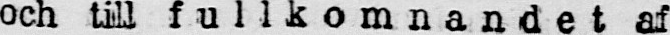och till fullkomnandet af
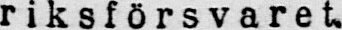riksförsvaret.
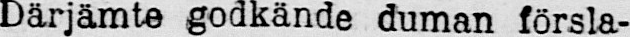Därjämte godkände duman försla-
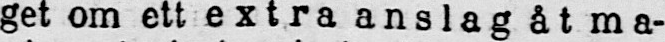get om ett extra anslag åt ma-
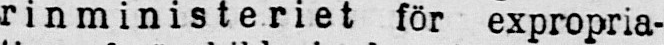rinministeriet för expropria-
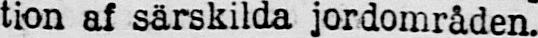tion af särskilda jordområden.
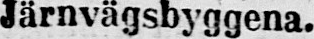Järnvägsbyggena.
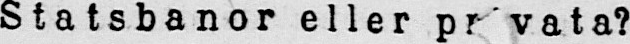Statsbanor eller pr vata?
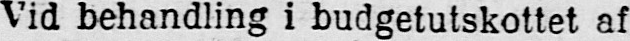Vid behandling i budgetutskottet af
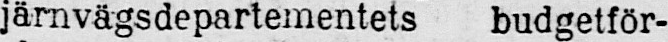järnvägsdepartementets budgetför-
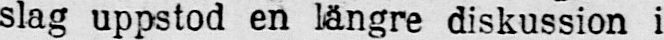slag uppstod en längre diskussion i
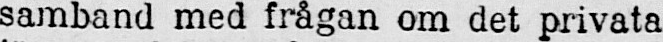samband med frågan om det privata
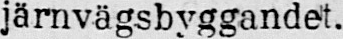järnvägsbyggandet.
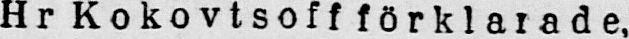Hr Kokovtsoffförklaiade,
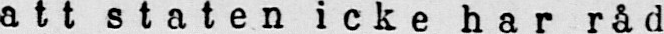att staten icke har råd
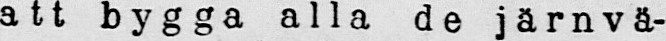att bygga alla de järnvä-
